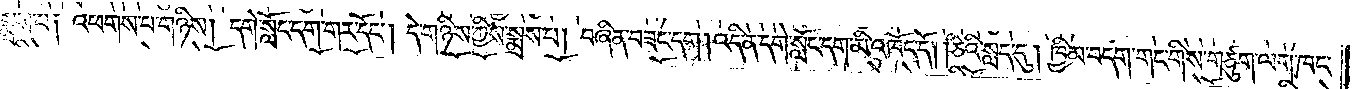སྨྲས་པ༑ འཕགས་པ་གཉིས། དགེ་སློང་དག་གར་དོང༌། དེ་གཉིས་ཀྱིས་སྨྲས་པ། བཞིན་བཟང་དག། འདི་ན་དགེ་སློང་དག་མི་འཁོད་དོ། །ཅིའི་སླད་དུ། ཁྱིམ་བདག་གང་གིས་གཙུག་ལག་ཁང་
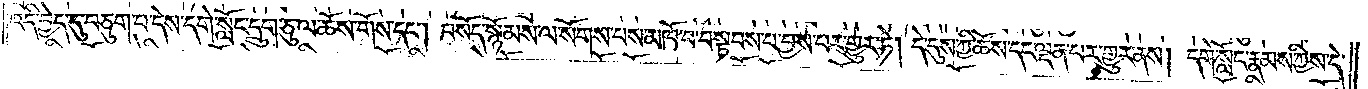འདི་བྱེད་དུ་བཅུག་པ་དེས་དགེ་སློང་དྲུག་ཅུ་ལ་ཆོས་གོས་དང༌། བསོད་སྙོམས་ལ་སོགས་པས་མཁོ་བ་བསྟབས་པ་བྱས་པར་གྱུར་ཏེ། དེ་དུས་ཀྱི་ཆོས་དང་ལྡན་པར་གྱུར་ནས། དགེ་སློང་རྣམས་ཀྱིས་དེ་
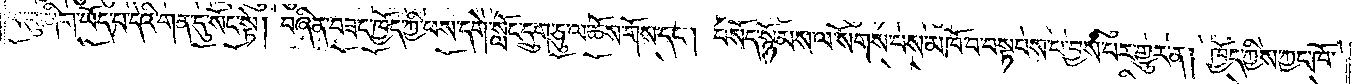ལ་བུ་ཞིག་ཡོད་པ་དེའི་གན་དུ་སོང་སྟེ། བཞིན་བཟང་ཁྱོད་ཀྱི་ཕས་དགེ་སློང་དྲུག་ཅུ་ལ་ཆོས་གོས་དང༌། བསོད་སྙོམས་ལ་སོགས་པས་མཁོ་བ་བསྟབས་པ་བྱས་པར་གྱུར་ན། ཁྱོད་ཀྱིས་ཀྱང་ཁོ་
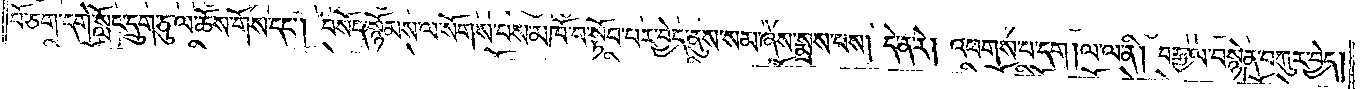བོ་ཅག་དགེ་སློང་དྲུག་ཅུ་ལ་ཆོས་གོས་དང༌། བསོད་སྙོམས་ལ་སོགས་པས་མཁོ་བ་སྟོབ་པར་བྱེད་ནུས་སམ་ཞེས་སྨྲས་པས། དེ་ན་རེ། འཕགས་པ་དག །ལ་ལ་ནི། བརྒྱ་ལ་བསྙེན་བཀུར་བྱེད།
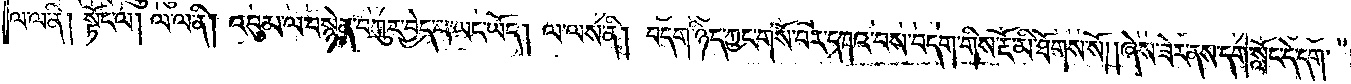ལ་ལ་ནི། སྟོང་ལ། ལ་ལ་ནི། འབུམ་ལ་བསྙེན་བཀུར་བྱེད་པ་ཡང་ཡོད། ལ་ལས་ནི། བདག་ཉིད་ཀྱང་གསོ་བར་དཀའ་བས་བདག་གིས་རྔོ་མི་ཐོགས་སོ། །ཞེས་ཟེར་ནས་དགེ་སློང་དེ་དག་
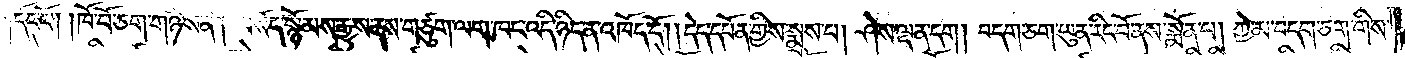དོང་ངོ༌། །ཁོ་བོ་ཅག་གཉིས་ནི། བསོད་སྙོམས་རྒྱུས་ནས་གཙུག་ལག་ཁང་འདི་ཉིད་ན་འཁོད་དོ། །དེད་དཔོན་གྱིས་སྨྲས་པ། ཤེས་ལྡན་དག། བདག་ཅག་ཡུན་རིང་པོ་ནས་སྨོན་པ། ཀྱེ་མ་བདག་ཅག་གིས་
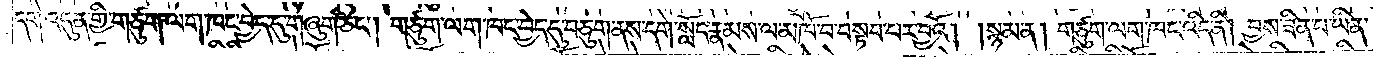དགེ་འདུན་གྱི་གཙུག་ལག་ཁང་བྱེད་དུ་གཞུག་ཅིང༌། གཙུག་ལག་ཁང་བྱེད་དུ་བཅུག་ནས་དགེ་སློང་རྣམས་ལ་མཁོ་བ་བསྟབ་པར་བྱའོ། །སྙམ་ན། གཙུག་ལག་ཁང་འདི་ནི། བྱས་ཟིན་པ་ཡིན་
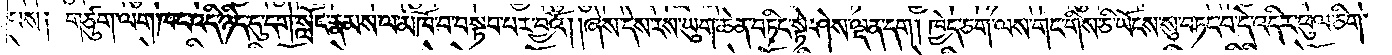པས༑ གཙུག་ལག་ཁང་འདི་ཉིད་དུ་དགེ་སློང་རྣམས་ལ་མཁོ་བ་བསྟབ་པར་བྱའོ། །ཞེས་དེས་རས་ཡུག་ཆེན་བཏིང་སྟེ་ཤེས་ལྡན་དག། ཁྱེད་ཅག་ལས་གང་གིས་ཅི་ཡོངས་སུ་བཏང་བ་དེ་འདིར་ཕུལ་ཅིག་
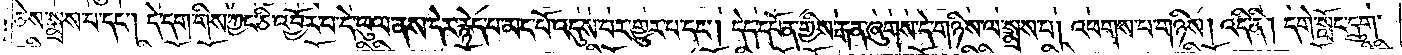ཅེས་སྨྲས་པ་དང༌། དེ་དག་གིས་ཀྱང་ཅི་འབྱོར་པ་དེ་ཕུལ་ནས་དེར་རྙེད་པ་མང་པོ་འདུས་པར་གྱུར་པ་དང༌། དེད་དཔོན་གྱིས་རྒན་ཞུགས་དེ་གཉིས་ལ་སྨྲས་པ། འཕགས་པ་གཉིས། འདི་ནི། དགེ་སློང་དྲུག་
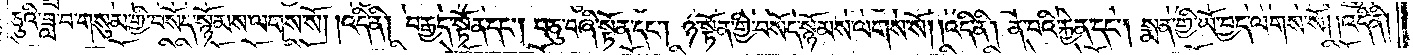ཅུའི་ཟླ་བ་གསུམ་གྱི་བསོད་སྙོམས་ལགས་སོ། །འདི་ནི། བརྒྱད་སྟོན་དང༌། བཅུ་བཞི་སྟོན་དང༌། ཉ་སྟོན་གྱི་བསོད་སྙོམས་ལགས་སོ། །འདི་ནི། ན་བའི་རྐྱེན་དང༌། སྨན་གྱི་ཡོ་བྱད་ལགས་སོ། །འདི་ནི།
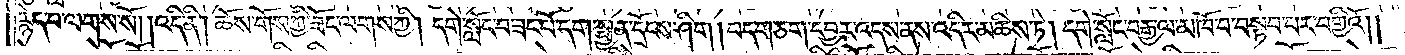རྙེད་པ་ལགས་སོ། །འདི་ནི། ཆོས་གོས་ཀྱི་ཟོང་ལགས་ཀྱི། དགེ་སློང་བཟང་པོ་དག་སྤྱན་དྲོངས་ཤིག། བདག་ཅག་དབྱར་འདས་ནས་འདིར་མཆིས་ཏེ། དགེ་སློང་བརྒྱ་ལ་མཁོ་བ་བསྟབ་པར་བགྱིའོ། །
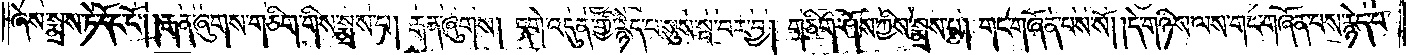ཞེས་སྨྲས་ཏེ་དོང་ངོ༌། །རྒན་ཞུགས་གཅིག་གིས་སྨྲས་པ། རྒན་ཞུགས། དགེ་འདུན་གྱི་རྙེད་པ་སུས་སྦ་བར་བྱ། གཅིག་ཤོས་ཀྱིས་སྨྲས་པ། གང་གཞོན་པས་སོ། །དེ་གཉིས་ལས་གང་གཞོན་པས་རྙེད་པ་
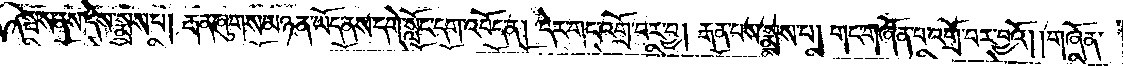དེ་སྦས་ནས་དེས་སྨྲས་པ། རྒན་ཞུགས་མཉན་ཡོད་ནས་དགེ་སློང་དག་འབོད་ན། དེར་གང་འགྲོ་བར་བྱ། རྒན་པས་སྨྲས་པ། གང་གཞོན་པ་འགྲོ་བར་བྱའོ། །གཞོན་
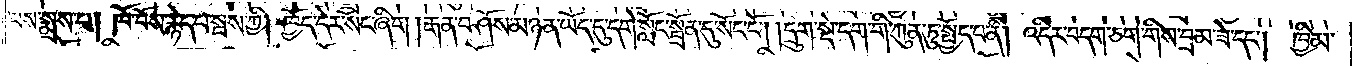པས་སྨྲས་པ། ཁོ་བོས་རྙེད་པ་སྦས་ཀྱི། ཁྱོད་དེར་སོང་ཞིག །རྒན་བཤོས་མཉན་ཡོད་དུ་དགེ་སློང་སྦྲོན་དུ་སོང་ངོ༌། དྲུག་སྡེ་དག་གི་ཀུན་ཏུ་སྤྱོད་པ་ནི། འདིར་བདག་ཅག་གིས་བྲམ་ཟེ་དང༌། ཁྱིམ་
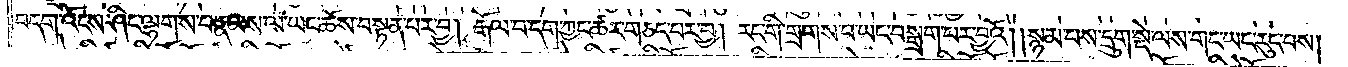བདག་འོངས་ཤིང་ལྷགས་པ་རྣམས་ལ་ཡང་ཆོས་བསྟན་པར་བྱ། རྒོལ་བ་དག་ཀྱང་ཚར་གཅད་པར་བྱ། རང་གི་གྲགས་པ་ཡང་བསྒྲག་པར་བྱའོ། །སྙམ་པས་དྲུག་སྡེ་ལས་གང་ཡང་རུང་བས།
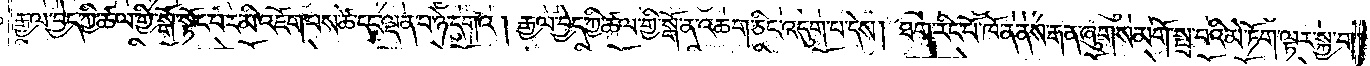རྒྱལ་བྱེད་ཀྱི་ཚལ་གྱི་སྒོ་སྟོང་པར་མི་འཇོག་པས་ཚེ་དང་ལྡན་པ་ཉེ་དགའ། རྒྱལ་བྱེད་ཀྱི་ཚལ་གྱི་སྒོ་ན་འཆག་ཅིང་འདུག་པ་དེས། ཐག་རིང་པོ་ཁོ་ན་ནས་རྒན་ཞུགས་མགོ་སྤྲ་བའི་མེ་ཏོག་ལྟར་སྐྱ་བ།
